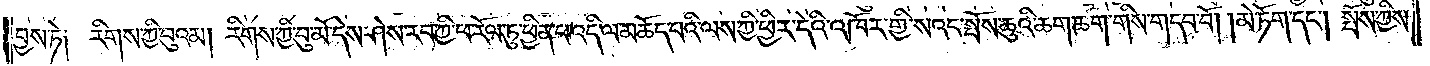བྱས་ཏེ། རིགས་ཀྱི་བུའམ། རིགས་ཀྱི་བུ་མོ་དེས་ཤེས་རབ་ཀྱི་ཕ་རོལ་ཏུ་ཕྱིན་པ་འདི་ལ་མཆོད་པའི་ལས་ཀྱི་ཕྱིར་དེའི་འཁོར་གྱི་སའང་སྤོས་ཆུའི་ཆག་ཆག་གིས་གདབ་བོ། །མེ་ཏོག་དང༌། སྤོས་ཀྱིས་
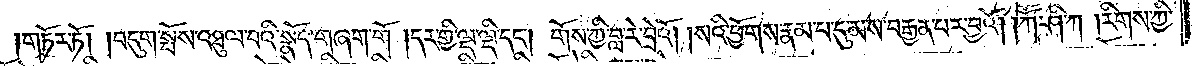གཏོར་ཏོ། །བདུག་སྤོས་འཐུལ་བའི་སྣོད་བཞག་གོ །དར་གྱི་ལྡ་ལྡི་དང༌། གོས་ཀྱི་བླ་རེ་བྲེའོ། །སའི་ཕྱོགས་རྣམ་པ་དུ་མས་བརྒྱན་པར་བྱའོ། །ཀཽ་ཤི་ཀ །རིགས་ཀྱི་
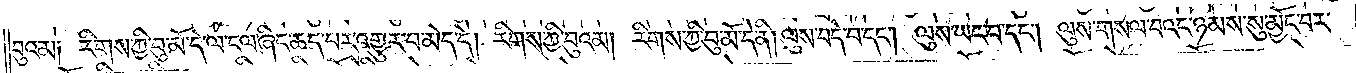བུའམ། རིགས་ཀྱི་བུ་མོ་དེ་ལ་ངལ་ཞིང་ཆད་པར་འགྱུར་བ་མེད་དེ། རིགས་ཀྱི་བུའམ། རིགས་ཀྱི་བུ་མོ་དེ་ནི། ལུས་བདེ་བ་དང༌། ལུས་ཡང་བ་དང༌། ལུས་གསལ་བའང་ཉམས་སུ་མྱོང་བར་
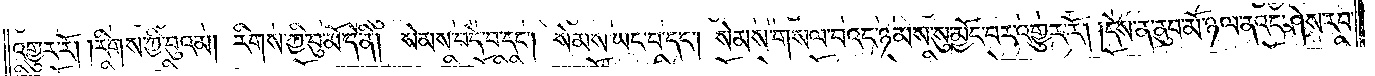འགྱུར་རོ། །རིགས་ཀྱི་བུའམ། རིགས་ཀྱི་བུ་མོ་དེ་ནི། སེམས་བདེ་བ་དང༌། སེམས་ཡང་བ་དང༌། སེམས་གསལ་བའང་ཉམས་སུ་མྱོང་བར་འགྱུར་རོ། །དེ་ནས་ནུབ་མོ་ཉལ་ནའང་ཤེས་རབ་
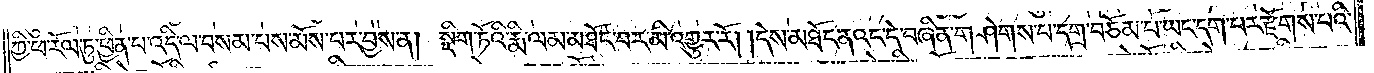ཀྱི་ཕ་རོལ་ཏུ་ཕྱིན་པ་འདི་ལ་བསམ་པས་མོས་པར་བྱས་ན། སྡིག་ཏོའི་རྨི་ལམ་མཐོང་བར་མི་འགྱུར་རོ། །དེས་མཐོང་ནའང་དེ་བཞིན་གཤེགས་པ་དགྲ་བཅོམ་པ་ཡང་དག་པར་རྫོགས་པའི་
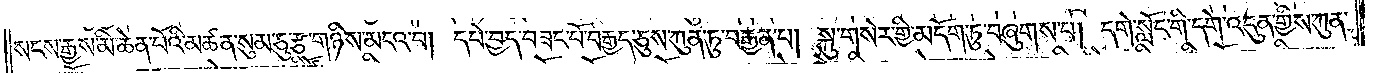སངས་རྒྱས་མི་ཆེན་པོའི་མཚན་སུམ་ཅུ་རྩ་གཉིས་མངའ་བ། དཔེ་བྱད་བཟང་པོ་བརྒྱད་ཅུས་ཀུན་ཏུ་བརྒྱན་པ། སྐུ་གསེར་གྱི་མདོག་ཏུ་བཞུགས་པ། དགེ་སློང་གི་དགེ་འདུན་གྱིས་ཀུན་
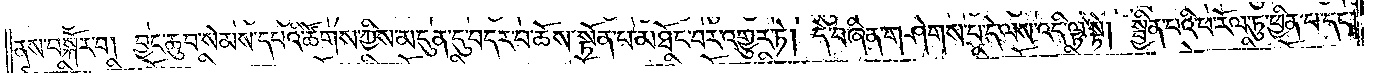ནས་བསྐོར་བ། བྱང་ཆུབ་སེམས་དཔའི་ཚོགས་ཀྱིས་མདུན་དུ་བདར་བ་ཆོས་སྟོན་པ་མཐོང་བར་འགྱུར་ཏེ། དེ་བཞིན་གཤེགས་པ་ད་ལས་འདི་ལྟ་སྟེ། སྦྱིན་པའི་ཕ་རོལ་ཏུ་ཕྱིན་པ་དང༌།
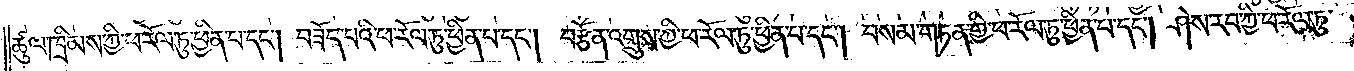ཚུལ་ཁྲིམས་ཀྱི་ཕ་རོལ་ཏུ་ཕྱིན་པ་དང༌། བཟོད་པའི་ཕ་རོལ་ཏུ་ཕྱིན་པ་དང༌། བརྩོན་འགྲུས་ཀྱི་ཕ་རོལ་ཏུ་ཕྱིན་པ་དང༌། བསམ་གཏན་གྱི་ཕ་རོལ་ཏུ་ཕྱིན་པ་དང༌། ཤེས་རབ་ཀྱི་ཕ་རོལ་ཏུ་
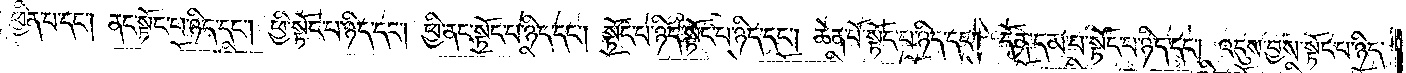ཕྱིན་པ་དང༌། ནང་སྟོང་པ་ཉིད་དང༌། ཕྱི་སྟོང་པ་ཉིད་དང༌། ཕྱི་ནང་སྟོང་པ་ཉིད་དང༌། སྟོང་པ་ཉིད་སྟོང་པ་ཉིད་དང༌། ཆེན་པོ་སྟོང་པ་ཉིད་དང༌། དོན་དམ་པ་སྟོང་པ་ཉིད་དང༌། འདུས་བྱས་སྟོང་པ་ཉིད་
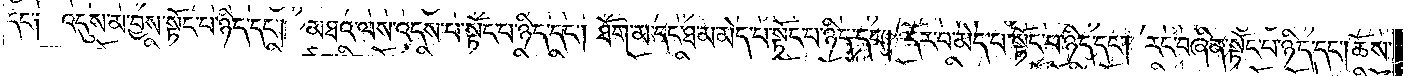དང༌༑ འདུས་མ་བྱས་སྟོང་པ་ཉིད་དང༌། མཐའ་ལས་འདས་པ་སྟོང་པ་ཉིད་དང༌། ཐོག་མ་དང་ཐ་མ་མེད་པ་སྟོང་པ་ཉིད་དང༌། དོར་བ་མེད་པ་སྟོང་པ་ཉིད་དང༌། རང་བཞིན་སྟོང་པ་ཉིད་དང༌། ཆོས་
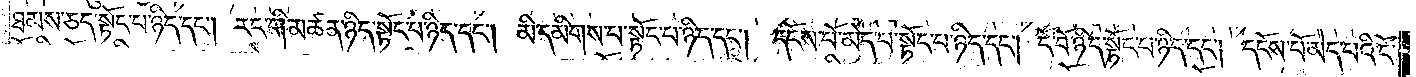ཐམས་ཅད་སྟོང་པ་ཉིད་དང༌། རང་གི་མཚན་ཉིད་སྟོང་པ་ཉིད་དང༌། མི་དམིགས་པ་སྟོང་པ་ཉིད་དང༌། དངོས་པོ་མེད་པ་སྟོང་པ་ཉིད་དང༌། ངོ་བོ་ཉིད་སྟོང་པ་ཉིད་དང༌། དངོས་པོ་མེད་པའི་ངོ་
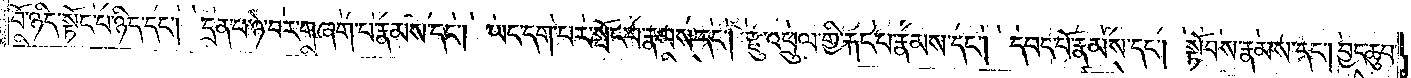བོ་ཉིད་སྟོང་པ་ཉིད་དང༌། དྲན་པ་ཉེ་བར་གཞག་པ་རྣམས་དང༌། ཡང་དག་པར་སྤོང་བ་རྣམས་དང༌། རྫུ་འཕྲུལ་གྱི་རྐང་པ་རྣམས་དང༌། དབང་པོ་རྣམས་དང༌། སྟོབས་རྣམས་དང༌། བྱང་ཆུབ་
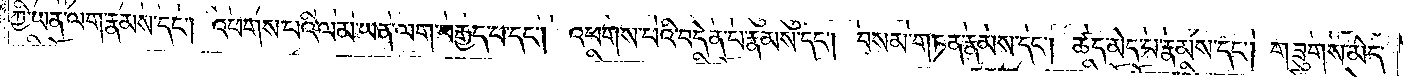ཀྱི་ཡན་ལག་རྣམས་དང༌། འཕགས་པའི་ལམ་ཡན་ལག་བརྒྱད་པ་དང༌། འཕགས་པའི་བདེན་པ་རྣམས་དང༌། བསམ་གཏན་རྣམས་དང༌། ཚད་མེད་པ་རྣམས་དང༌། གཟུགས་མེད་
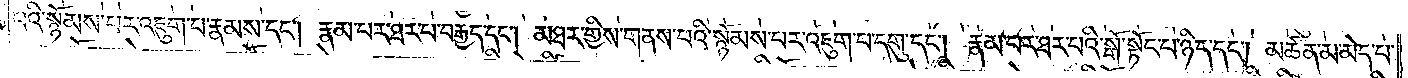པའི་སྙོམས་པར་འཇུག་པ་རྣམས་དང༌། རྣམ་པར་ཐར་པ་བརྒྱད་དང༌། མཐར་གྱིས་གནས་པའི་སྙོམས་པར་འཇུག་པ་དགུ་དང༌། རྣམ་པར་ཐར་པའི་སྒོ་སྟོང་པ་ཉིད་དང༌། མཚན་མ་མེད་པ་
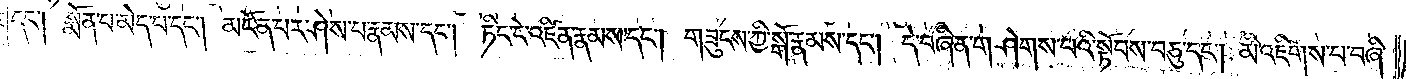དང༌། སྨོན་པ་མེད་པ་དང༌། མངོན་པར་ཤེས་པ་རྣམས་དང༌། ཏིང་ངེ་འཛིན་རྣམས་དང༌། གཟུངས་ཀྱི་སྒོ་རྣམས་དང༌། དེ་བཞིན་གཤེགས་པའི་སྟོབས་བཅུ་དང༌། མི་འཇིགས་པ་བཞི་
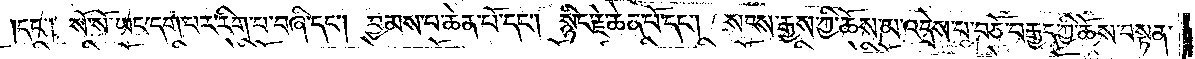དང༌། སོ་སོ་ཡང་དག་པར་རིག་པ་བཞི་དང༌། བྱམས་པ་ཆེན་པོ་དང༌། སྙིང་རྗེ་ཆེན་པོ་དང༌། སངས་རྒྱས་ཀྱི་ཆོས་མ་འདྲེས་པ་བཅོ་བརྒྱད་ཀྱི་ཆོས་བསྟན་
